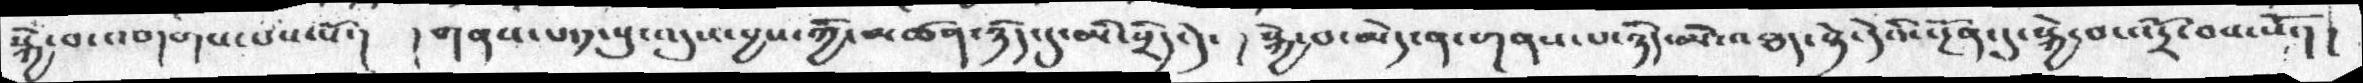སྐྱེ་བ་འགགས་པས་སོ་།  ། གནས་པ༡་པུ་འདུས་བྱས་ཀྱི་མཚན་ཉིད་དུ་མི་སྲིད་དེ་  ། སྐྱེ་བ་མེད་ན་གནས་པ་ཉིད་མི་འཐད་སྟེ་དེའི་སྔོན་དུ་སྐྱེ་བ་འདྲོ་བས་སོ་། །
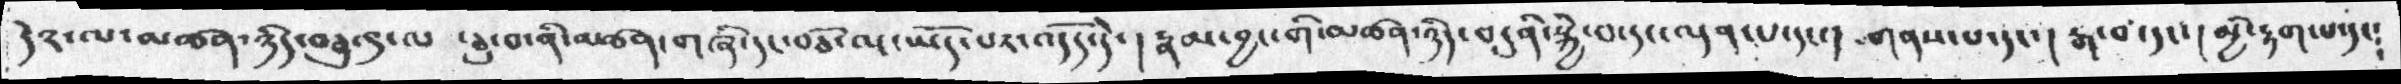དེ༢་ལ་མཚན་ཉིད་བཅུ་༩་ལ ་ཅུ་བ་ནི་མཚན་གཞི་དང་བཅོ་ལྔ་ཡོད་པར་འདོད་དེ་ ། རྣམ་བྱང་གི་མཚན་ཉིད་བདུནི་སྐྱེ་བ་དང་ལྡན་པ་དང་།  གནས་པ་དང་། རྒ་བ་དང་། མྱི་རྟག་པ་དང༴
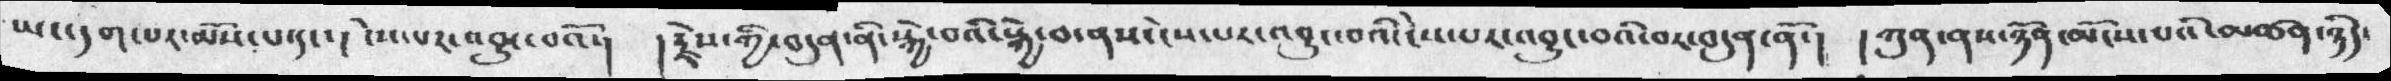ཡང་དག་པར་མོས་པ་དང་། ངེས་པར་འབྱུང་བའོ་།  ། རྗེས་གྱི་བདུན་ནི་སྐྱེ་བའི་སྐྱེ་བ་ནས་ངེས་པར་འབྱུང་བའི་ངེས་པར་འབྱུང་བའི་བར་བདུན་ནོ་།  །ཀུན་ནས་ཉོན་མོངས་མཚན་ཉིད་
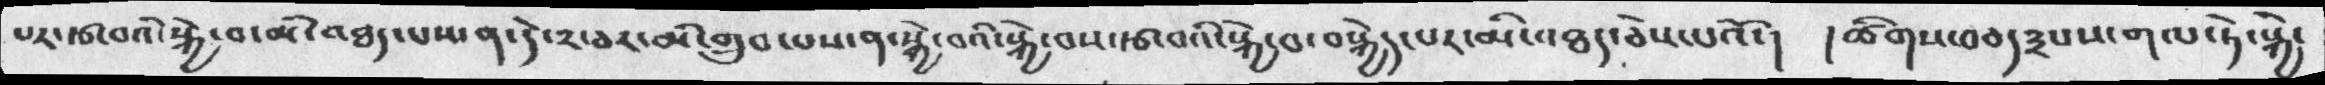པར་རྩ་བའི་སྐྱེ་བ་མི་འཐད་པས་ན་དེ་༢་ཅར་མི་གྲུབ་པས་ན་སྐྱེ་བའི་སྐྱེ་བས་རྩ་བའི་སྐྱེ་བ་བསྐྱེད་པར་མི་འཐད་ཅེས་པའོ་།  ། ཚིགས་བཅད༣པས་གལ་ཏེ་སྐྱེ་
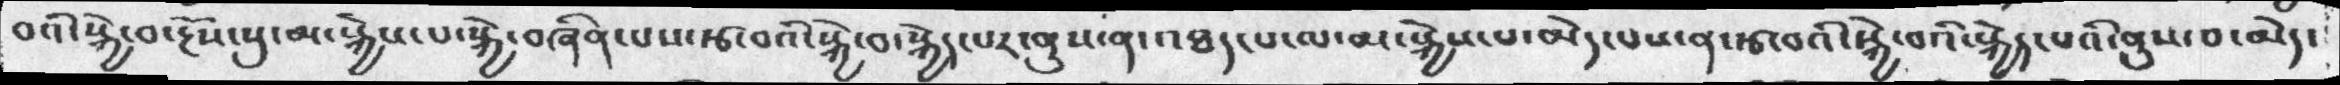བའི་སྐྱེ་བ་རྔོས་སུ་མ་སྐྱེས་པ་སྐྱེ་བཞིན་པས་རྩ་བའི་སྐྱེ་བ་སྐྱེད་པར་ནུས་ན་འཐད་པ་ལ་མ་སྐྱེས་པ་མེད་པས་ན་རྩ་བའི་སྐྱེ་བའི་སྐྱེད་པའི་ནུས་པ་མེད་
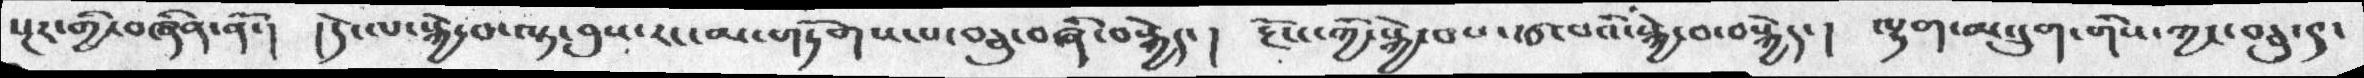སྔར་གྱི་བཞིན་ནོ་།   །དེ་ལ་སྐྱེ་བ་ལྟ་བུས་རང་མ་གཏོགས་པ་བཅུ་བཞི་བསྐྱེད་།  རྔོས་ཀྱི་སྐྱེ་བས་རྩ་པའི་སྐྱེ་བ་བསྐྱེད་།  ལྷག་མ་དྲུག་གིས་ཀྱང་བཅུ་ད་
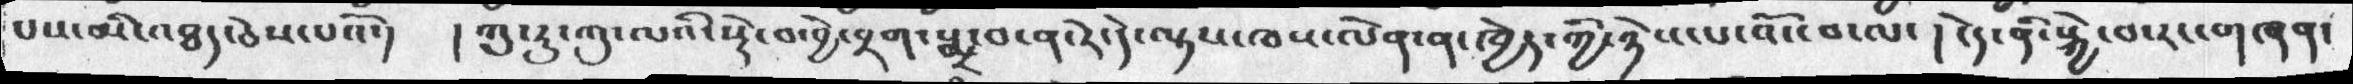པས་མི་འཐད་ཅེས་པའོ་།  ། ཀུ་རུ་ཀུ་ལའི་སྔོ་བ་བྱེ་བྲག་སྨྲ་བ་ན་རེ་དེ་ལྟས་ཁས་ལེན་ན་ཁྱེད་ཀྱི་ཉེས་པ་འོང་བ་ལ་ །  ངེད་ནི་སྐྱེ་བ་རང་གཞན་
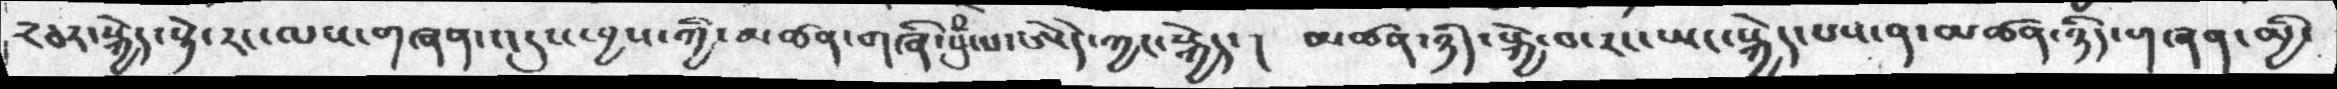༢ཅར་སྐྱེད་སྟེ་རང་ལས་གཞན་འདུས་བྱས་ཀྱི་མཚན་གཞི་བུཾ་པ་ཨེདེ་ཀྱང་སྐྱེད་ ། མཚན་ཉིད་སྐྱེ་བ་རང་ཡང་སྐྱེད་པས་ན་མཚན་ཉིད་གཞན་མྱི་
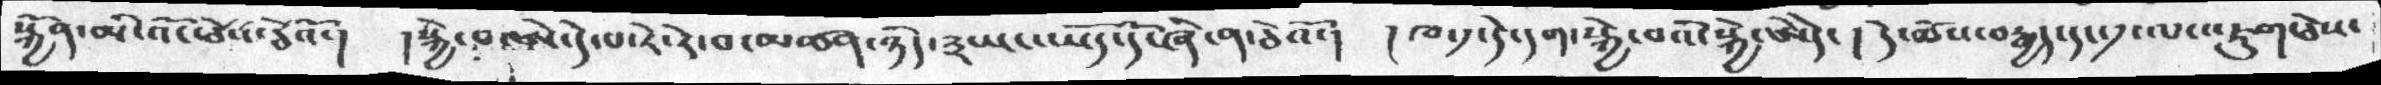སྐྱོན་མི་འོང་ཅེས་ཅེའོ་། །སྐྱེ་བ་ཨེ་དེ་པ་རེ་རེ་བ་མཚན་ཉིད་༣ཡང་ཡོད་དོ་ཞེ་བ་ཅེའོ་།  །ཁ་༡་དེ་དག་སྐྱེ་བའི་སྐྱེ་ཨེདེ་ ། དེ་ཆོས་བརྒྱད་དང་༡་ལ་འཇུག་ཅེས་
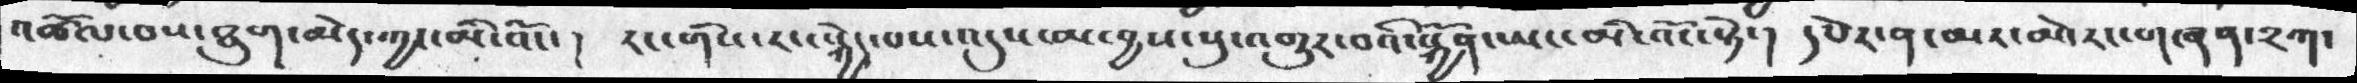འཚོལ་བས་ཐུག་མེད་ཀྱང་མི་འོང་ །  རང་གིས་རང་སྐྱེད་པས་འདུས་མ་བྱས་སུ་འགྱུར་བའི་སྐྱོན་ཡང་མི་འོང་སྟེ་། དཔེར་ན་མར་མེ་རང་གཞན་༢ཀ་
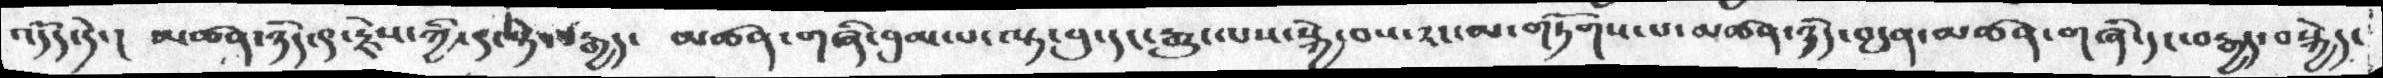འདོད་དེ་། མཚན་ཉིད་༩་རྗེས་ཀྱི་༩་སྟེ་བརྒྱད་   མཚན་གཞི་བུམ་པ་ལྟ་བུ་དང་རྒྱུ་ལས་སྐྱེ་བས་རང་མ་གཏོགས་པ་མཚན་ཉིད་བདུན་མཚན་གཞི་དང་བརྒྱད་བསྐྱེད་
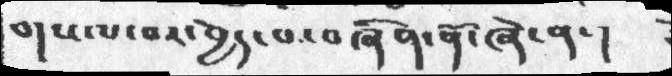གསལ་བར་བྱེད་པ་བཞིན་ནོ་ཞེ་ན་།
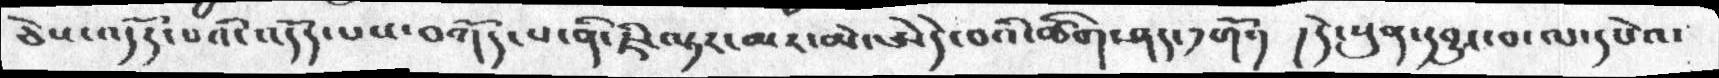ཅེས་འདོད་པའི་འདོད་པས་བཀོད་པ་ནི་ཇི་ལྟར་མར་མེ་ཨེདེ་བའི་ཚིག་ཤད་༡གོ་།  །དེ་སུན་དབྱུང་བ་ལ་དཔེའ་
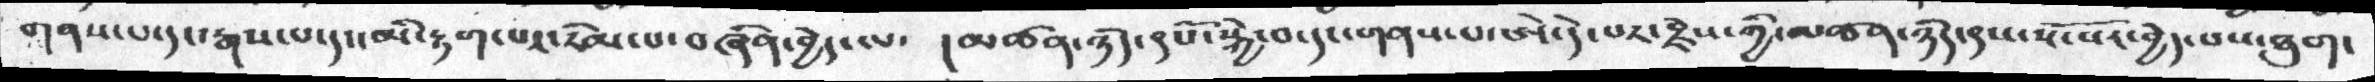གནས་པ་དང་རྒས་པ་དང་མི་རྟག་པར་རིམ་པ་བཞིན་བྱེད་ལ་   །་མཚན་ཉིད་༩སོ་སྐྱེ་བ་དང་གནས་པ་ཨེ་དེ་པར་རྗེས་ཀྱི་མཚན་ཉིད་༩ས་སོ་སོར་བྱེད་པས་ཐུག་
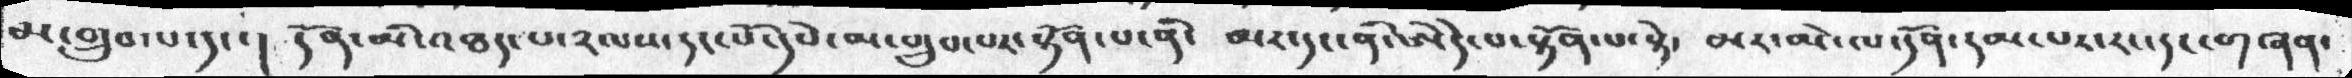མ་གྲུབ་པ་དང་ ། དོན་མི་འཐད་པ་༢ལས་དང་པོ་དཔེ་མ་གྲུབ་པར་སྟོན་པ་ནི་   མར་དང་ནི་ཨེདེ་པ་སྟོན་སྟེ་   མར་མེ་ལ་དོན་དམ་པར་རང་དང་གཞན་
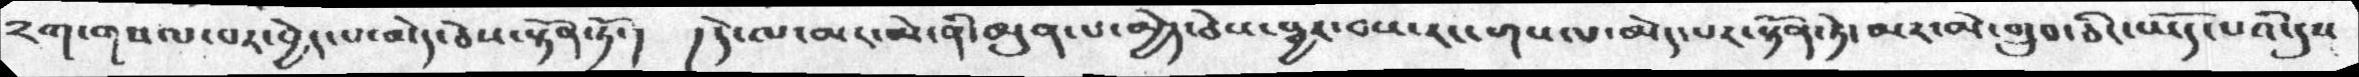༢ག་གསལ་བར་བྱེད་པ་མེད་ཅེས་སྟོན་ཏོ་།   ། དེ་ལ་མར་མེ་ནི་མུན་པ་མྱེད་ཅེས་སྦྱར་བས་རང་གསལ་མེད་པར་སྟོན་ཏེ་མར་མེ་གྲུབ་ཅིང་ཡོད་པའི་དུས་
